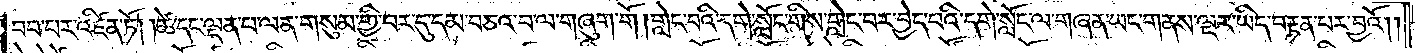བབ་པར་འཛིན་ཏོ། །ཚེ་དང་ལྡན་པ་ལན་གསུམ་གྱི་བར་དུ་དམ་བཅའ་བ་ལ་གཞུག་གོ །གླེང་བའི་དགེ་སློང་གིས་གླེང་བར་བྱེད་པའི་དགེ་སློང་ལ་གཞན་ཡང་གནས་ལྔར་ཡིད་བརྟན་པར་བྱའོ༎
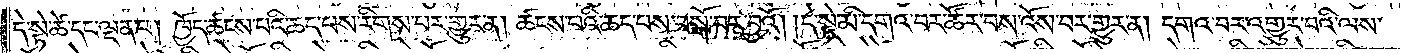དེ་སྟེ་ཚེ་དང་ལྡན་པ། ཁྱོད་ཚངས་པའི་ཆད་པས་རིགས་པར་གྱུར་ན། ཚངས་པའི་ཆད་པས་བསྒོ་བར་བྱའོ། །དེ་སྟེ་མི་དགའ་བར་ཚོར་བས་འོས་བར་གྱུར་ན། དགའ་བར་འགྱུར་བའི་ལས་
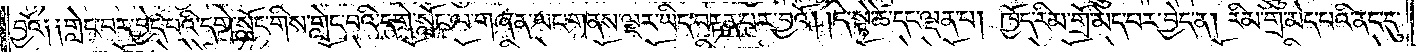བྱའོ༑ ༑གླེང་བར་བྱེད་པའི་དགེ་སློང་གིས་གླེང་བའི་དགེ་སློང་ལ་གཞན་ཡང་གནས་ལྔར་ཡིད་བརྟན་པར་བྱའོ། །དེ་སྟེ་ཚེ་དང་ལྡན་པ། ཁྱོད་རིམ་གྲོ་མེད་པར་བྱེད་ན། རིམ་གྲོ་མེད་པའི་ནང་དུ་
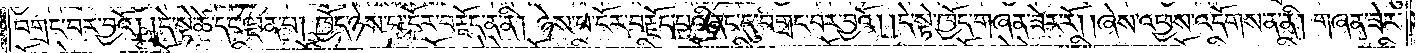བགྲང་བར་བྱའོ། །དེ་སྟེ་ཚེ་དང་ལྡན་པ། ཁྱོད་ཉེས་པ་ངོར་བརྗོད་ན་ནི། ཉེས་པ་ངོར་བརྗོད་པའི་ནང་དུ་བགྲང་བར་བྱའོ། །དེ་སྟེ་ཁྱོད་གཞན་ཟེར་རོ། །ཞེས་འཕྱས་འདོགས་ན་ནི། གཞན་ཟེར་
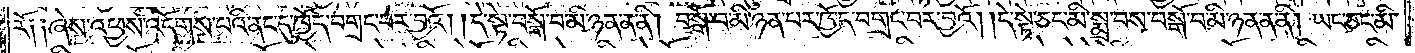རོ༑ ༑ཞེས་འཕྱས་འདོགས་པའི་ནང་དུ་ཁྱོད་བགྲང་བར་བྱའོ། །དེ་སྟེ་བསྒོ་བ་མི་ཉན་ན་ནི། བསྒོ་བ་མི་ཉན་པར་ཁྱོད་བགྲང་བར་བྱའོ། །དེ་སྟེ་ཅང་མི་སྨྲ་བས་བསྒོ་བ་མི་ཉན་ན་ནི། ཡང་ཅང་མི་
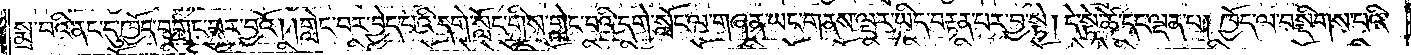སྨྲ་བའི་ནང་དུ་ཁྱོད་བགྲང་བར་བྱའོ། །གླེང་བར་བྱེད་པའི་དགེ་སློང་གིས་གླེང་བའི་དགེ་སློང་ལ་གཞན་ཡང་གནས་ལྔར་ཡིད་བརྟན་པར་བྱ་སྟེ། དེ་སྟེ་ཚེ་དང་ལྡན་པ། ཁྱོད་ལ་བསྡིགས་པའི་
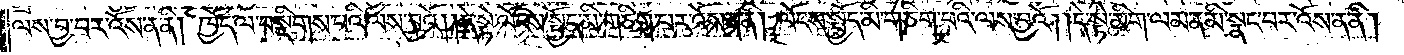ལས་བྱ་བར་འོས་ན་ནི། ཁྱོད་ལ་བསྡིགས་པའི་ལས་བྱའོ། །དེ་སྟེ་ལོངས་སྤྱོད་མི་གཅིག་པར་འོས་ན་ནི། ལོངས་སྤྱོད་མི་གཅིག་པའི་ལས་བྱའོ། །དེ་སྟེ་མིག་ལམ་ན་མི་སྣང་བར་འོས་ན་ནི།
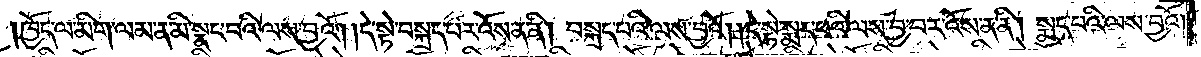ཁྱོད་ལ་མིག་ལམ་ན་མི་སྣང་བའི་ལས་བྱའོ། །དེ་སྟེ་བསྐྲད་པར་འོས་ན་ནི། བསྐྲད་པའི་ལས་བྱའོ། །དེ་སྟེ་སྨད་པའི་ལས་བྱ་བར་འོས་ན་ནི། སྨད་པའི་ལས་བྱའོ།
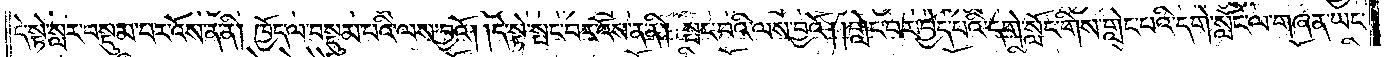དེ་སྟེ་སླར་བསྡུམ་པར་འོས་ན་ནི། ཁྱོད་ལ་བསྡུམ་པའི་ལས་བྱའོ། །དེ་སྟེ་སྤང་བར་འོས་ན་ནི། སྤང་བའི་ལས་བྱའོ། །གླེང་བར་བྱེད་པའི་དགེ་སློང་གིས་གླེང་བའི་དགེ་སློང་ལ་གཞན་ཡང་
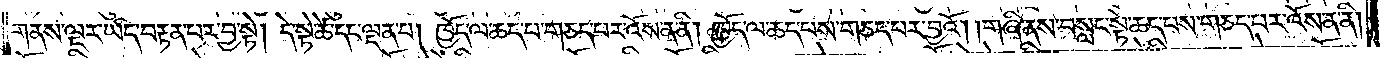གནས་ལྔར་ཡིད་བརྟན་པར་བྱ་སྟེ། དེ་སྟེ་ཚེ་དང་ལྡན་པ། ཁྱོད་ལ་ཆད་པ་གཅད་པར་འོས་ན་ནི། ཁྱོད་ལ་ཆད་པས་གཅད་པར་བྱའོ། །གཞི་ནས་བསླང་སྟེ་ཆད་པས་གཅད་པར་འོས་ན་ནི།
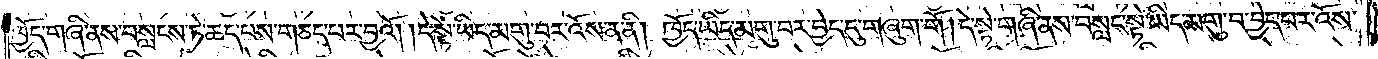ཁྱོད་གཞི་ནས་བསླངས་ཏེ་ཆད་པས་གཅད་པར་བྱའོ། །དེ་སྟེ་ཡིད་མགུ་བར་འོས་ན་ནི། ཁྱོད་ཡིད་མགུ་བར་བྱེད་དུ་གཞུག་གོ །དེ་སྟེ་གཞི་ནས་བསླང་སྟེ་ཡིད་མགུ་བ་བྱེད་པར་འོས་
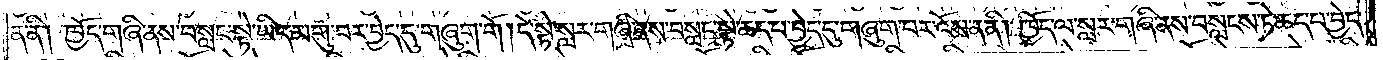ན་ནི། ཁྱོད་གཞི་ནས་བསླང་སྟེ་ཡིད་མགུ་བར་བྱེད་དུ་གཞུག་གོ། དེ་སྟེ་སླར་གཞི་ནས་བསླང་སྟེ་ཆད་པ་བྱེད་དུ་གཞུག་པར་འོས་ན་ནི། ཁྱོད་ལ་སླར་གཞི་ནས་བསླངས་ཏེ་ཆད་པ་བྱེད་
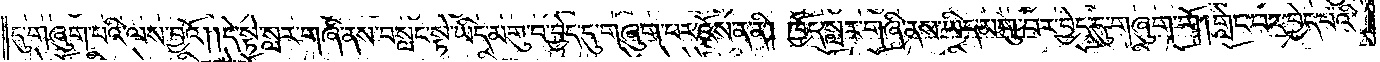དུ་གཞུག་པའི་ལས་བྱའོ། །དེ་སྟེ་སླར་གཞི་ནས་བསླང་སྟེ་ཡིད་མགུ་བ་བྱེད་དུ་གཞུག་པར་འོས་ན་ནི། ཁྱོད་སླར་གཞི་ནས་ཡིད་མགུ་བར་བྱེད་དུ་གཞུག་གོ །གླེང་བར་བྱེད་པའི་
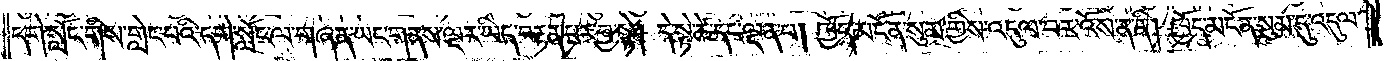དགེ་སློང་གིས་གླེང་པའི་དགེ་སློང་ལ་གཞན་ཡང་གནས་ལྔར་ཡིད་བརྟན་པར་བྱ་སྟེ། དེ་སྟེ་ཚེ་དང་ལྡན་པ། ཁྱོད་མངོན་སུམ་གྱིས་འདུལ་བར་འོས་ན་ནི། ཁྱོད་མངོན་སུམ་དུ་འདུལ་
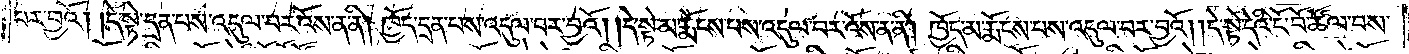བར་བྱའོ། །དེ་སྟེ་དྲན་པས་འདུལ་བར་འོས་ན་ནི། ཁྱོད་དྲན་པས་འདུལ་བར་བྱའོ། །དེ་སྟེ་མ་རྨོངས་པས་འདུལ་བར་འོས་ན་ནི། ཁྱོད་མ་རྨོངས་པས་འདུལ་བར་བྱའོ། །དེ་སྟེ་དེའི་ངོ་བོ་ཚོལ་བས་
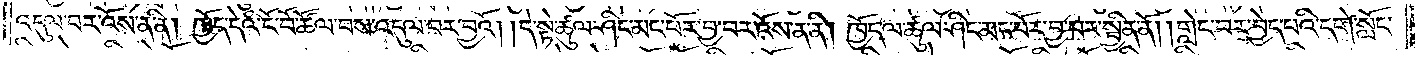འདུལ་བར་འོས་ན་ནི། ཁྱོད་དེའི་ངོ་བོ་ཚོལ་བས་འདུལ་བར་བྱའོ། །དེ་སྟེ་ཚུལ་ཤིང་མང་པོར་བྱ་བར་འོས་ན་ནི། ཁྱོད་ལ་ཚུལ་ཤིང་མང་པོར་བྱ་བར་སྦྱིན་ནོ། །གླེང་བར་བྱེད་པའི་དགེ་སློང་
